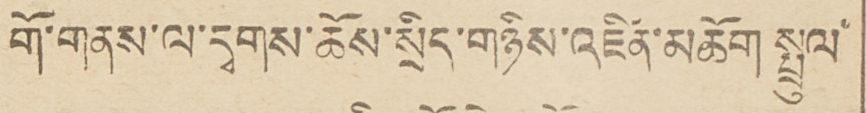གོ་གནས་ལ་དྭགས་ཆོས་སྲིད་གཉིས་འཛིན་མཆོག སྤྲུལ་
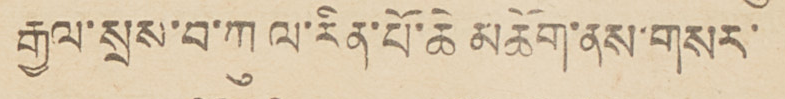རྒྱལ་སྲས་བ་ཀུ ལ་རིན་པོ་ཆེ མཆོག་ནས་གསར་
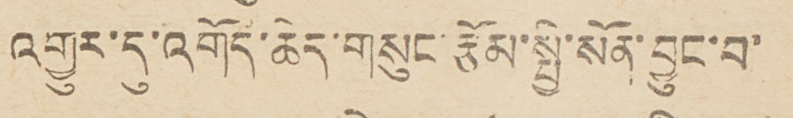འགྱུར་དུ་འགོད་ཆེད་གསུང་རྩོམ་སྤྱི་སོན་བྱུང་བ་
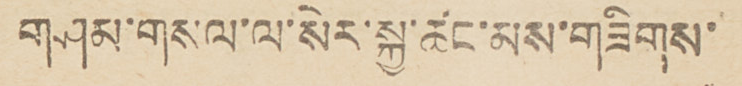གཤམ་གསལ་ལ་སེར་སྐྱ་ཚང་མས་གཟིགས་
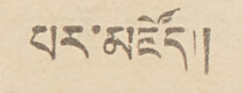པར་མཛོད།།
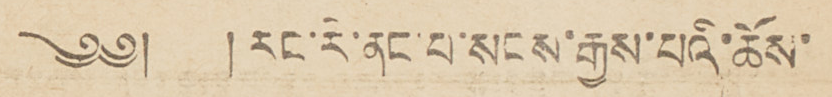༄༅། །རང་རེ་ནང་པ་སངས་རྒྱས་པའི་ཆོས་
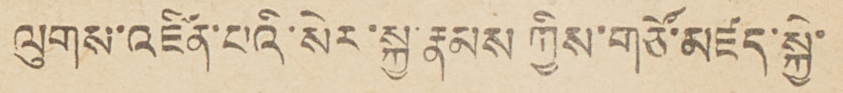ལུགས་འཛིན་པའི་སེར་སྐྱ་རྣམས ཀྱིས་གཙོ་མཛད་སྐྱེ་
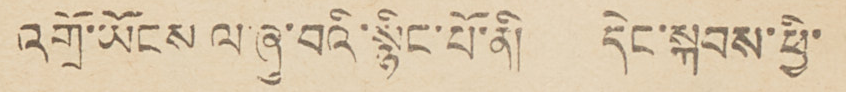འགྲོ་ཡོངས ལ་ཞུ་བའི་སྙིང་པོ་ནི། དེང་སྐབས་ཕྱི་
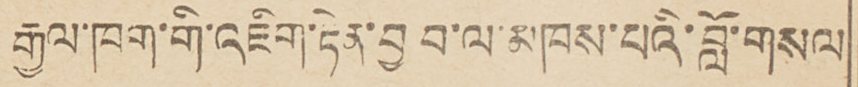རྒྱལ་ཁག་གི་འཇིག་རྟེན་བྱ བ་ལ་མཁས་པའི་བློ་གསལ
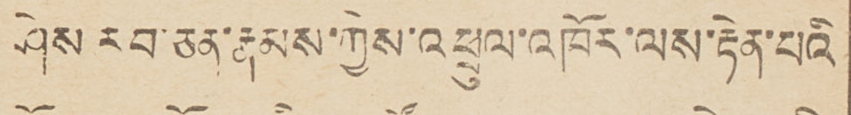ཤེས རབ་ཅན་རྣམས་ཀྱིས་འཕྲུལ་འཁོར་ལས་རྟེན་པའི
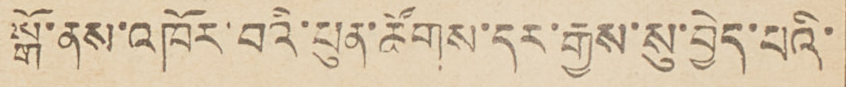སྒོ་ནས་འཁོར་བའི་ཕུན་ཚོགས་དར་རྒྱས་སུ་བྱེད་པའི་
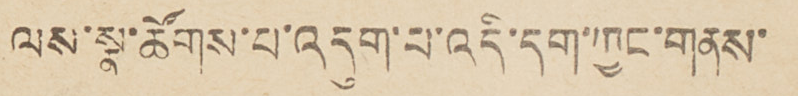ལས་སྣ་ཚོགས་པ་འདུག་པ་འདི་དག་ཀྱང་གནས་
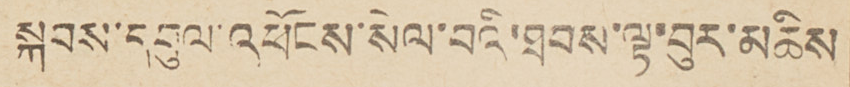སྐབས་དབུལ་འཕོངས་སེལ་བའི་ཐབས་ལྟ་བུར་མཆིས
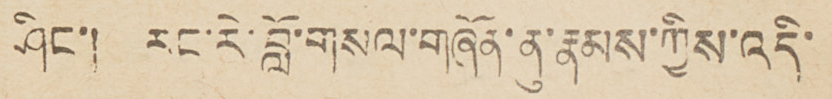ཤིང་། རང་རེ་བློ་གསལ་གཞོན་ནུ་རྣམས་ཀྱིས་འདི་
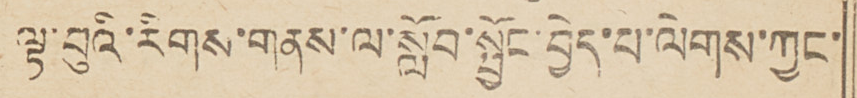ལྟ་བུའི་རིགས་གནས་ལ་སློབ་སྦྱོང་བྱེད་པ་ལེགས་ཀྱང་
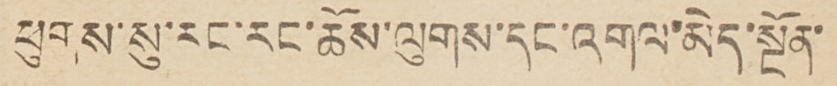ཕུགས་སུ་རང་རང་ཆོས་ལུགས་དང་འགལ་མེད་སྔོན་
